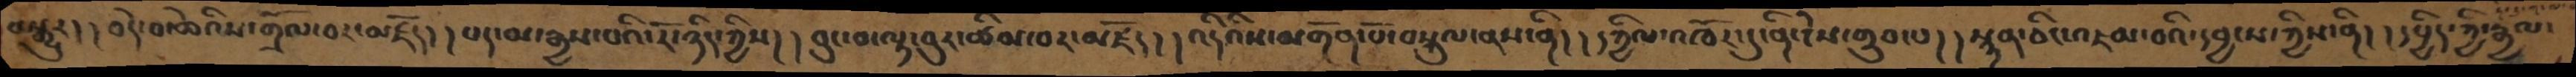བསྒྱུར། །བདེ་བ་ཆེའིས་གྲོལ་བར་མཛོད། །པད་མ་རྒྱས་པའི་རོ་ཉིད་ཀྱིས། །བུང་བ་ལྟ་བུར་ཚིམ་བར་མཛོད། །འདིའིས་མགོན་པོ་བསྐུལ་ནས་ནི། །དཀྱིལ་འཁོར་དུ་ནི་ངེས་གྲུབ་པ། །སྙན་ཅིང་འཇམ་བའི་དབྱངས་ཀྱིས་ནི། །དཔྱིད་ཀྱི་རྒྱལ་
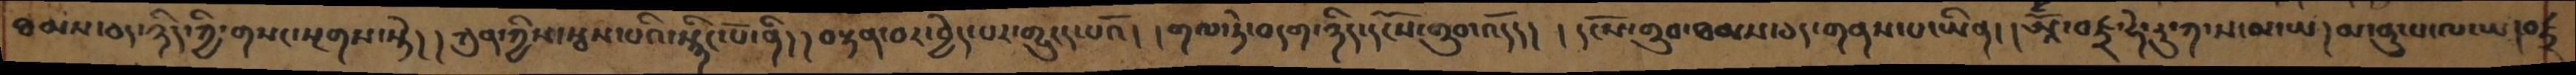ཐམས་ཅད་ཉིད་ཀྱི་གསང་སྔགས་སྟེ། །ཀུན་ཀྱིས་སྦས་པའི་སྙིང་པོ་ནི། །བསྟན་བར་བྱེད་པར་གྱུརད་པའོ། །གལ་ཏེ་བདག་ཉིད་དངོས་གྲུབ་འདོད། །དངོས་གྲུབ་ཐམས་ཅད་གནས་པ་ཡིན།།ཨོྃ་བཛྲ་ཧེ་རུ་ཀ་ས་མ་ཡ།མ་ནུ་པ་ལ་ཡ།བཛྲ
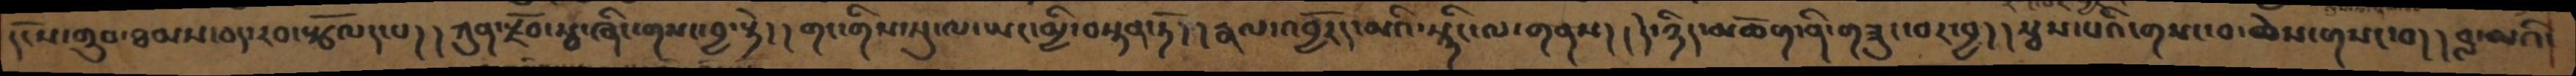དངོས་གྲུབ་ཐམས་ཅད་རབ་སྩོལད་པ། །ཀུན་རྗོབ་སསྦ་ཞིང་གསང་བྱ་སྟེ། །གང་གིས་སུ་ལ་ཡང་མྱི་བསྟན་ཏོ། །རྣལ་འབྱོརད་མའི་སྙིང་ལ་གནས། །དེ་ཉིད་མཆོག་ནི་གཟུང་བར་བྱ། །སྦས་པའི་གསང་བ་ཆེས་གསང་བ། །བླ་མའི་
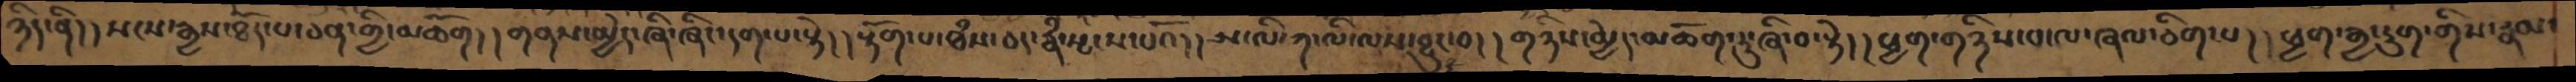ཉིད་ནི། །སངས་རྒྱས་ཐོད་པ་ཅན་གྱི་མཆོག། །གནས་མྱེད་ཞི་ཞིང་དག་པ་སྟེ། །རྟོག་པ་ཐཾས་ཅད་རྣཾ་སྤངས་པའོ། ། ཨ་ལི་ཀ་ལི་ལས་བྱུང་བ། །གཉིས་མྱེད་མཆོག་ཏུ་ཞི་བ་སྟེ། །ཕྱག་གཉིས་པ་ལ་ཞལ་ཅིག་པ། །ཕྱག་རྒྱ་དྲུག་གིས་རྣམ་
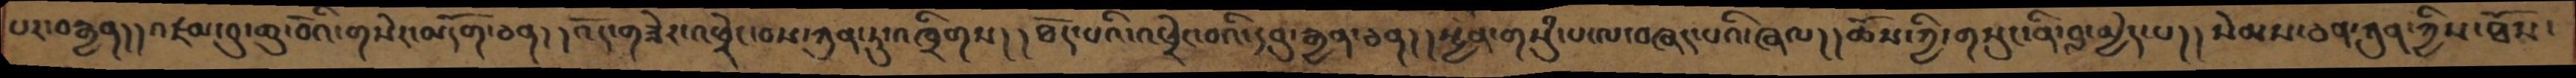པར་བརྒྱན། །འཛམ་བུ་ཆུ་བོའི་གསེར་མདོག་ཅན། །འོད་ཟེར་འཕྲེང་བས་ཀུན་ཏུ་འཁྲིགས། །ཐོད་པའི་འཕྲེང་བའི་དབུ་རྒྱན་ཅན། །སྤྱན་གསུཾ་པ་ལ་བཞད་པའི་ཞལ། །ཆོས་ཀྱི་གསུང་ནི་བླ་མྱེད་པ། ། སེམས་ཅན་ཀུན་ཀྱིས་ཐོས་
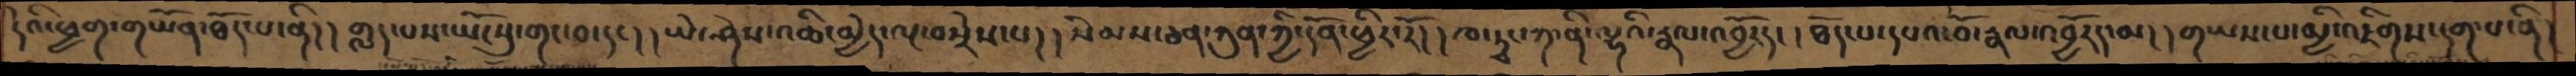དེའི་ཕྱག་གཡོན་ཐོད་པ་ནི། །གླད་པས་ཡོངསུ་གང་བ་དང། །ཡེ་ཤེས་འཆི་མྱེད་ལྔ་བསྲེས་པ། །སེམས་ཅན་ཀུན་ཀྱི་དོན་ཕྱིར་རོ། །ཁ་ཊྭང་ཀ་ནི་ལྷའི་རྣལ་འབྱོརད། །ཐོད་པ་དཔའ་བོ་རྣལ་འབྱོརད་མ། །གཡས་པ་མྱི་འཇིགས་དག་པ་ནི།
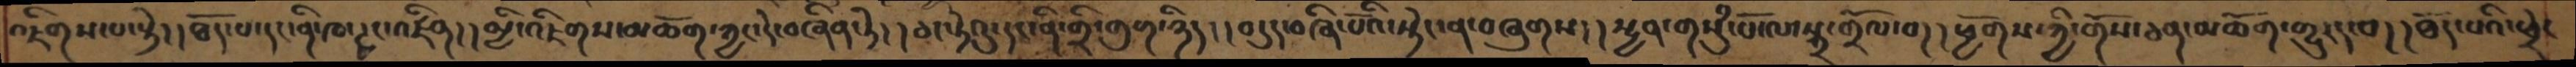འཇིགས་པ་སྟེ། །ཐོད་པ་དང་ནི་ཁ་ཊྭང་འཛིན། །མྱི་འཇིགས་མཆོག་ཀྱང་དེ་བཞིན་ཏེ། །ཅང་ཏེའུ་དང་ནི་གྲི་གུག་ཉིད། །བདུད་བཞི་པོའི་སྡེང་ན་བཞུགས། །སྤྱན་གསུཾ་པོ་ལ་སྐྲ་གྲོལ་བ། །ཕྱོགས་ཀྱི་གོས་ཅན་མཆོག་གྱུརད་བ། །ཐོད་པའི་ཕྲེང
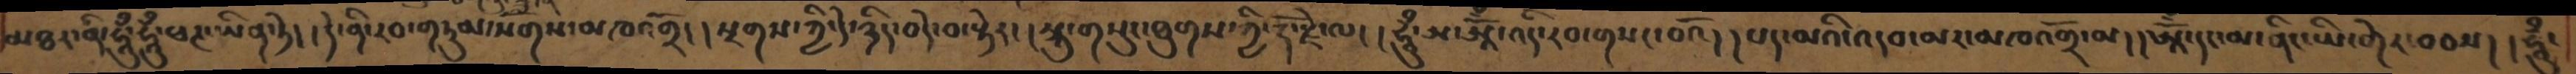མཐར་ནི་ཧཱུྃ་ཧཱུྃ་ཕཊ་ཡིན་ཏེ། །དེ་ནི་རབ་གཏུམ་སོགས་མཁའགྲོ། །སྔགས་ཀྱི་དེ་ཉིད་བདེ་བ་སྡེར།།སྐུ་གསུང་ཐུགས་ཀྱི་རྡོ་རྗེ་ལ། །ཧཱུྃ་ཨ་ཨཱོྃ་འདི་རབ་གསང་བའོ། །པད་མའི་འདབ་མར་མཁའགྲོ་མ། །ཨཱོྃ་དང་མ་ནིང་ཡི་གེར་བབས། །ཧཱུྃ་
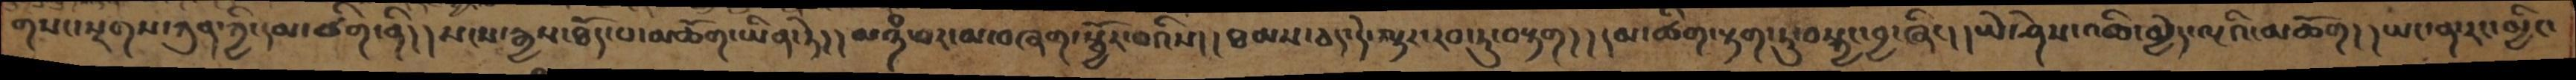གསང་སྔགས་ཀུན་ཀྱི་དམ་ཚིག་ནི། །སངས་རྒྱས་ཐོད་པ་མཆོག་ཡིན་ཏེ། །མཉཾ་པར་མ་བཞག་སྦྱོར་བའིས། །ཐམས་ཅད་དེ་ལྟར་རབ་ཏུ་བརྟག། །དམ་ཚིག་རྟག་ཏུ་བསྐྱང་བྱ་ཞིང། །ཡེ་ཤེས་འཆི་མྱེད་ལྔའི་མཆོག། །ཡང་ན་རང་མྱིང་
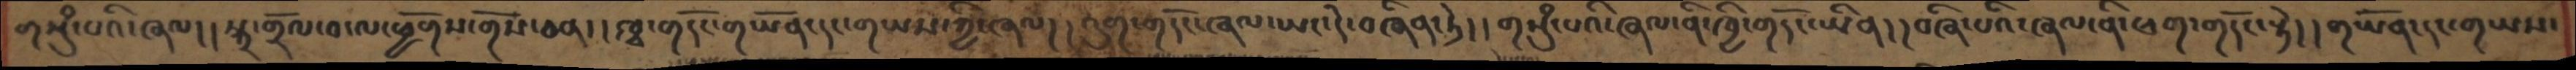གསུཾ་པའི་ཞལ། །སྐྲ་གྲོལ་བ་ལ་ཕྱོགས་གོས་ཅན། །ཁྭ་གདོང་གཡོན་དང་གཡས་ཀྱི་ཞལ། །འུག་གདོང་ཞལ་ཡང་དེ་བཞིན་ཏེ། །གསུཾ་པའི་ཞལ་ནི་ཁྱི་གདོང་ཡིན། །བཞི་པའི་ཞལ་ནི་ཕག་གདོང་སྟེ། །གཡོན་དང་གཡས་
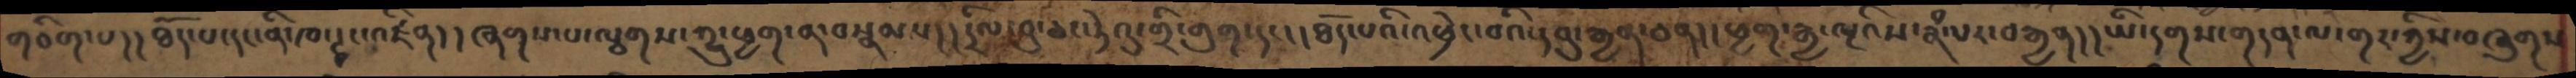གཅིག་པ།། ཐོད་པ་དང་ནི་ཁ་ཊྭང་འཛིན། །ཞགས་པ་ལྕགས་ཀྱུ་ཕྱག་ན་བསྣམས། ། དྲིལ་བུ་ཅང་ཏེའུ་གྲི་གུག་དང། །ཐོད་པའི་འཕྲེང་བའི་དབུ་རྒྱན་ཅན། །ཕྱག་རྒྱ་ལྔའིས་རྣཾ་པར་བརྒྱན། །ཡི་དགས་གདན་ལ་གར་ཀྱིས་བཞུགས
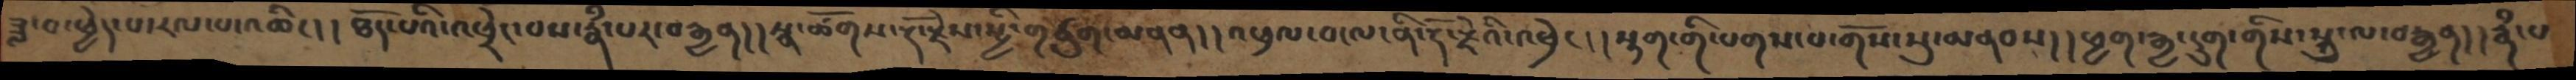ཟླ་བ་ཕྱེད་པ་རལ་པ་འཆིང། །ཐོད་པའི་འཕྲེང་བས་རྣཾ་པར་བརྒྱན། །སྣ་ཚོགས་རྡོ་རྗེས་སྤྱི་གཙུག་མནན། །འཕྲལ་བ་ལ་ནི་རྡོ་རྗེའི་འཕྲེང། །སྟག་གི་པགས་པ་གོས་སུ་མནབས། །ཕྱག་རྒྱ་དྲུག་གིས་སྐུ་ལ་བརྒྱན། །རྣཾ་པ་
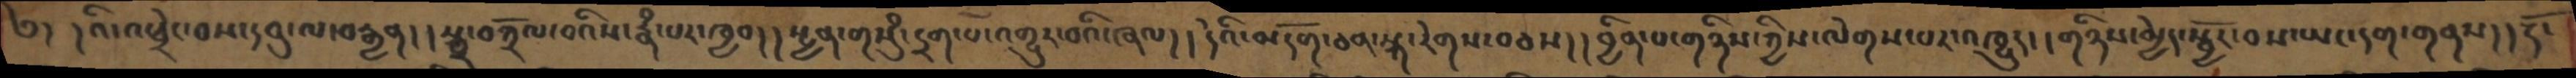༅། དའི་འཕྲེང་བས་དབུ་ལ་བརྒྱན། །སྐྲ་བཀྲོལ་བའིས་རྣཾ་པར་ཁྱབ། ། སྤྱན་གསུཾ་དྲག་པོ་འགྱུར་བའི་ཞལ། །དེའི་མདོག་ཅན་སྐ་རེགས་བཅས། །བྱིན་པ་གཉིས་ཀྱིས་ལེགས་པར་འཁྱུད། །གཉིས་མྱེད་སྦྱོར་བས་ཡང་དག་གནས། །རྡོ་
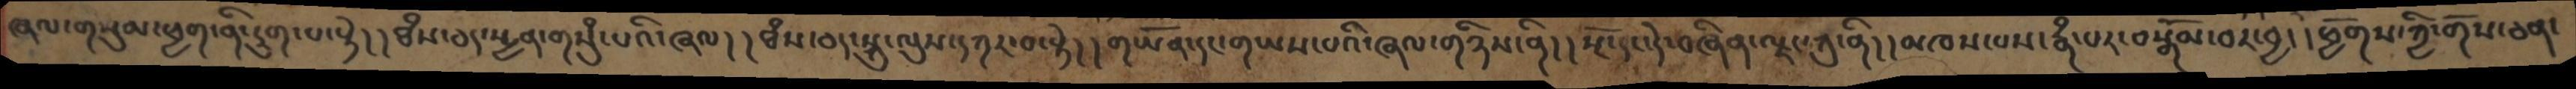ཞལ་གསུམ་ཕྱག་ནི་དྲུག་པ་སྟེ། །ཐཾས་ཅད་སྤྱན་གསུཾ་པའི་ཞལ། ཐཾས་ཅད་སྐུ་ལུས་དཀར་བ་སྟེ། །གཡོན་དང་གཡས་པའི་ཞལ་གཉིས་ནི། །སྔོ་དང་དེ་བཞིན་ལྗང་ཀུ་ནི། །མཁས་པས་རྣཾ་པར་བསྒོམ་བར་བྱ། །ཕྱོགས་ཀྱི་གོས་ཅན་
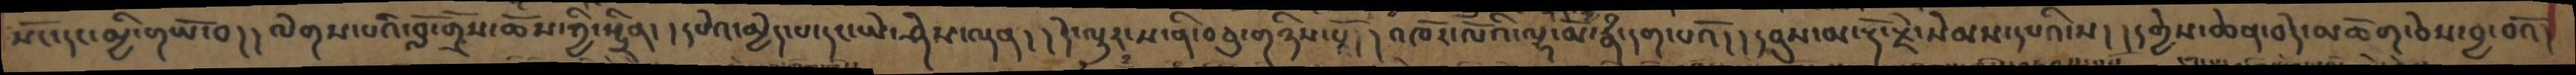སོང་དང་མྱི་གཡོ་བ། །ལེགས་པའི་བློ་གྲོས་ཆོས་ཀྱི་སྤྲིན། །དཔེའ་མྱེད་པ་དང་ཡེ་ཤེས་ལྡན། །དེ་ལྟར་ས་ནི་བཅུ་གཉིས་སོ། །འཁོར་ལོའི་ལྷ་མོ་རྣཾ་དག་པའོ། །དབུས་མ་རྡོ་རྗེ་སེམས་དཔའི་ས། །དགྱེས་ཆེན་བདེ་མཆོག་ཅེས་བྱ་བའོ།
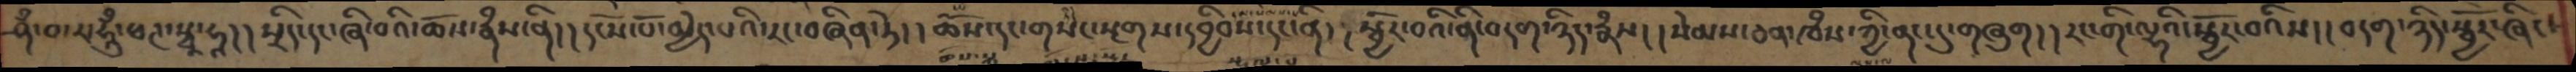ཤྃ་བ་ར་ཧཱུྃ་ཕཊ་སྭཱ་ཧཱ།།  སྲིད་དང་ཞི་བའི་ཆོས་རྣཾས་ནི།།དངོས་པོ་མྱེད་པའི་རང་བཞིན་ཏེ།།  ཆོས་དང་གསང་སྔགས་དབྱིབས་དང་ནི།། སྦྱོར་བའི་ནི་བདག་ཉིད་རྣཾས།། སེམས་ཅན་ཁཾས་ཀྱི་ནང་དུ་གཞུག།།རང་གི་ལྷའི་སྦྱོར་བའིས།། བདག་ཉིད་སྦྱོར་ཞིང་
